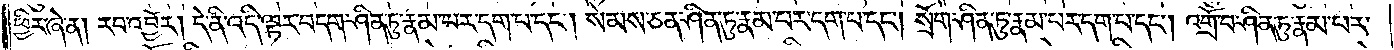ཕྱིར་ཞེ་ན། རབ་འབྱོར། དེ་ནི་འདི་ལྟར་བདག་ཤིན་ཏུ་རྣམ་པར་དག་པ་དང༌། སེམས་ཅན་ཤིན་ཏུ་རྣམ་པར་དག་པ་དང༌། སྲོག་ཤིན་ཏུ་རྣམ་པར་དག་པ་དང༌། འགྲོ་བ་ཤིན་ཏུ་རྣམ་པར་
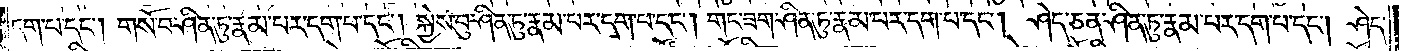དག་པ་དང༌། གསོ་བ་ཤིན་ཏུ་རྣམ་པར་དག་པ་དང༌། སྐྱེས་བུ་ཤིན་ཏུ་རྣམ་པར་དག་པ་དང༌། གང་ཟག་ཤིན་ཏུ་རྣམ་པར་དག་པ་དང༌། ཤེད་ཅན་ཤིན་ཏུ་རྣམ་པར་དག་པ་དང༌། ཤེད་
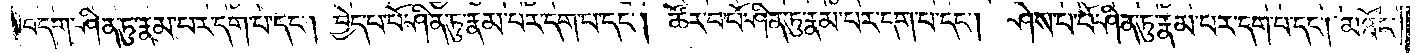བདག་ཤིན་ཏུ་རྣམ་པར་དག་པ་དང༌། བྱེད་པ་པོ་ཤིན་ཏུ་རྣམ་པར་དག་པ་དང༌། ཚོར་བ་པོ་ཤིན་ཏུ་རྣམ་པར་དག་པ་དང༌། ཤེས་པ་པོ་ཤིན་ཏུ་རྣམ་པར་དག་པ་དང༌། མཐོང་
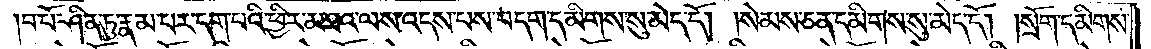བ་པོ་ཤིན་ཏུ་རྣམ་པར་དག་པའི་ཕྱིར་མཐའ་ལས་འདས་པས་བདག་དམིགས་སུ་མེད་དོ། །སེམས་ཅན་དམིགས་སུ་མེད་དོ། །སྲོག་དམིགས་
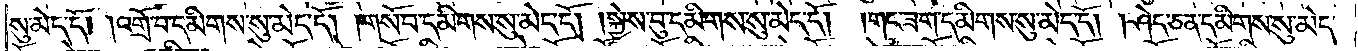སུ་མེད་དོ། །འགྲོ་བ་དམིགས་སུ་མེད་དོ། །གསོ་བ་དམིགས་སུ་མེད་དོ། །སྐྱེས་བུ་དམིགས་སུ་མེད་དོ། །གང་ཟག་དམིགས་སུ་མེད་དོ། །ཤེད་ཅན་དམིགས་སུ་མེད་
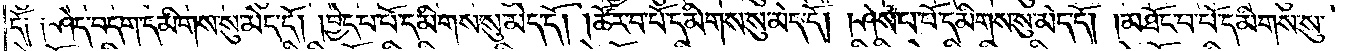དོ། །ཤེད་བདག་དམིགས་སུ་མེད་དོ། །བྱེད་པ་པོ་དམིགས་སུ་མེད་དོ། །ཚོར་བ་པོ་དམིགས་སུ་མེད་དོ། །ཤེས་པ་པོ་དམིགས་སུ་མེད་དོ། །མཐོང་བ་པོ་དམིགས་སུ་
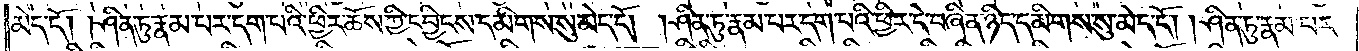མེད་དོ། །ཤིན་ཏུ་རྣམ་པར་དག་པའི་ཕྱིར་ཆོས་ཀྱི་དབྱིངས་དམིགས་སུ་མེད་དོ། །ཤིན་ཏུ་རྣམ་པར་དག་པའི་ཕྱིར་དེ་བཞིན་ཉིད་དམིགས་སུ་མེད་དོ། །ཤིན་ཏུ་རྣམ་པར་
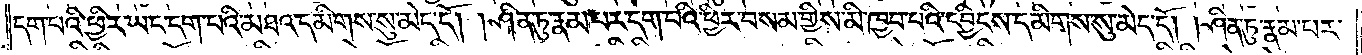དག་པའི་ཕྱིར་ཡང་དག་པའི་མཐའ་དམིགས་སུ་མེད་དོ། །ཤིན་ཏུ་རྣམ་པར་དག་པའི་ཕྱིར་བསམ་གྱིས་མི་ཁྱབ་པའི་དབྱིངས་དམིགས་སུ་མེད་དོ། །ཤིན་ཏུ་རྣམ་པར་
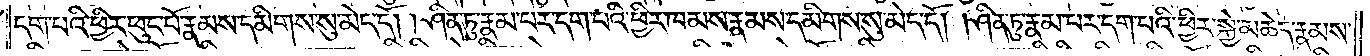དག་པའི་ཕྱིར་ཕུང་པོ་རྣམས་དམིགས་སུ་མེད་དོ། །ཤིན་ཏུ་རྣམ་པར་དག་པའི་ཕྱིར་ཁམས་རྣམས་དམིགས་སུ་མེད་དོ། །ཤིན་ཏུ་རྣམ་པར་དག་པའི་ཕྱིར་སྐྱེ་མཆེད་རྣམས་
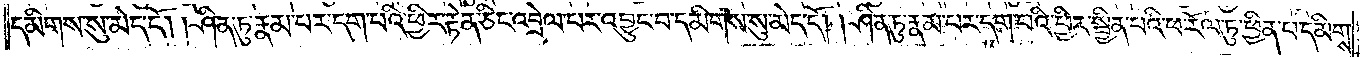དམིགས་སུ་མེད་དོ། །ཤིན་ཏུ་རྣམ་པར་དག་པའི་ཕྱིར་རྟེན་ཅིང་འབྲེལ་བར་འབྱུང་བ་དམིགས་སུ་མེད་དོ། །ཤིན་ཏུ་རྣམ་པར་དག་པའི་ཕྱིར་སྦྱིན་པའི་ཕ་རོལ་ཏུ་ཕྱིན་པ་དམིགས་
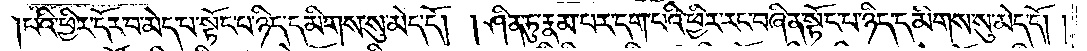པའི་ཕྱིར་དོར་བ་མེད་པ་སྟོང་པ་ཉིད་དམིགས་སུ་མེད་དོ། །ཤིན་ཏུ་རྣམ་པར་དག་པའི་ཕྱིར་རང་བཞིན་སྟོང་པ་ཉིད་དམིགས་སུ་མེད་དོ། །
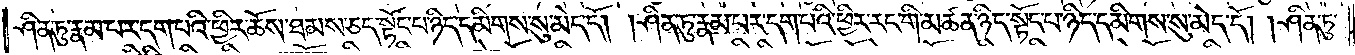ཤིན་ཏུ་རྣམ་པར་དག་པའི་ཕྱིར་ཆོས་ཐམས་ཅད་སྟོང་པ་ཉིད་དམིགས་སུ་མེད་དོ། །ཤིན་ཏུ་རྣམ་པར་དག་པའི་ཕྱིར་རང་གི་མཚན་ཉིད་སྟོང་པ་ཉིད་དམིགས་སུ་མེད་དོ། །ཤིན་ཏུ་
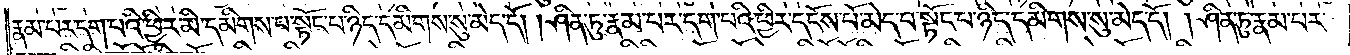རྣམ་པར་དག་པའི་ཕྱིར་མི་དམིགས་པ་སྟོང་པ་ཉིད་དམིགས་སུ་མེད་དོ། །ཤིན་ཏུ་རྣམ་པར་དག་པའི་ཕྱིར་དངོས་པོ་མེད་པ་སྟོང་པ་ཉིད་དམིགས་སུ་མེད་དོ། །ཤིན་ཏུ་རྣམ་པར་
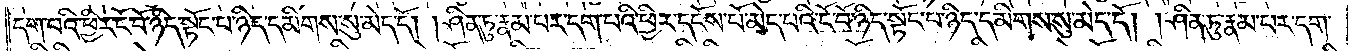དག་པའི་ཕྱིར་ངོ་བོ་ཉིད་སྟོང་པ་ཉིད་དམིགས་སུ་མེད་དོ། །ཤིན་ཏུ་རྣམ་པར་དག་པའི་ཕྱིར་དངོས་པོ་མེད་པའི་ངོ་བོ་ཉིད་སྟོང་པ་ཉིད་དམིགས་སུ་མེད་དོ། །ཤིན་ཏུ་རྣམ་པར་དག་
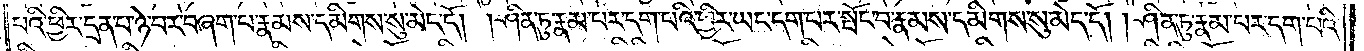པའི་ཕྱིར་དྲན་པ་ཉེ་བར་བཞག་པ་རྣམས་དམིགས་སུ་མེད་དོ། །ཤིན་ཏུ་རྣམ་པར་དག་པའི་ཕྱིར་ཡང་དག་པར་སྤོང་བ་རྣམས་དམིགས་སུ་མེད་དོ། །ཤིན་ཏུ་རྣམ་པར་དག་པའི་
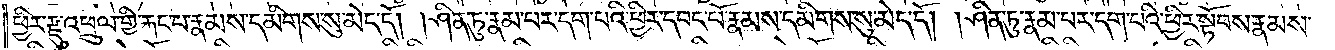ཕྱིར་རྫུ་འཕྲུལ་གྱི་རྐང་པ་རྣམས་དམིགས་སུ་མེད་དོ། །ཤིན་ཏུ་རྣམ་པར་དག་པའི་ཕྱིར་དབང་པོ་རྣམས་དམིགས་སུ་མེད་དོ། །ཤིན་ཏུ་རྣམ་པར་དག་པའི་ཕྱིར་སྟོབས་རྣམས་
